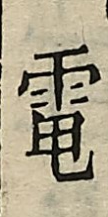電
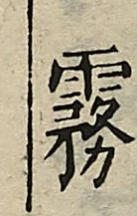霧
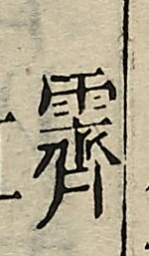霽
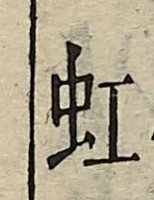虹
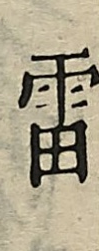雷
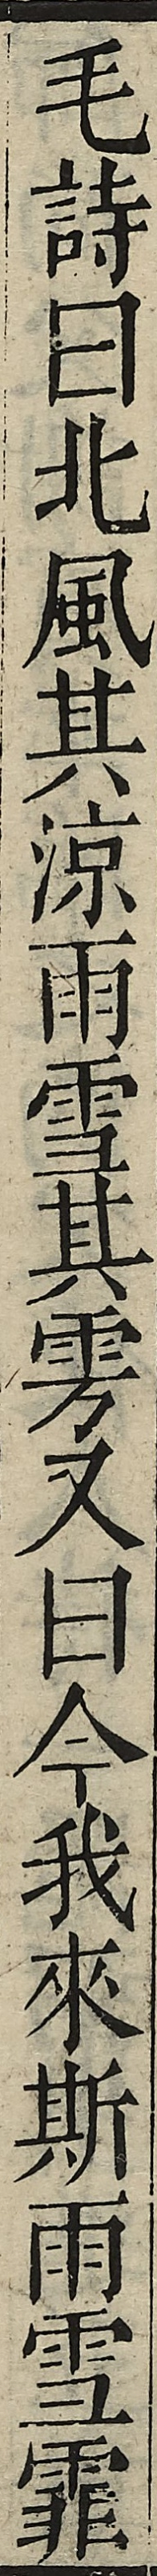毛詩曰北風其涼雨雪其雱又曰今我來斯雨雪霏
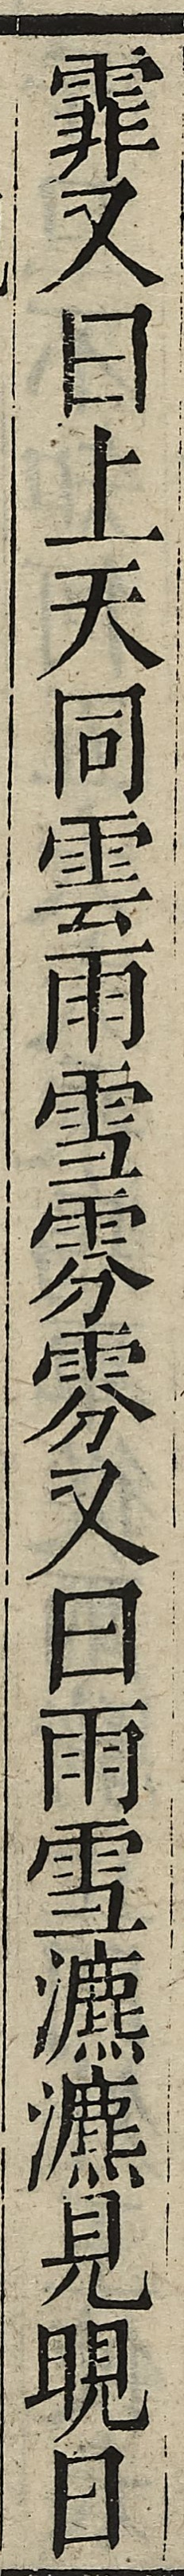霏又曰上天同雲雨雪雰雰又曰雨雪瀌瀌見晛
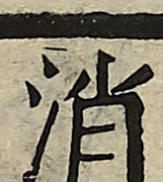消
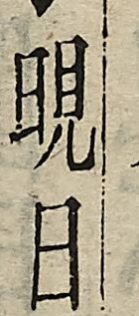晛日
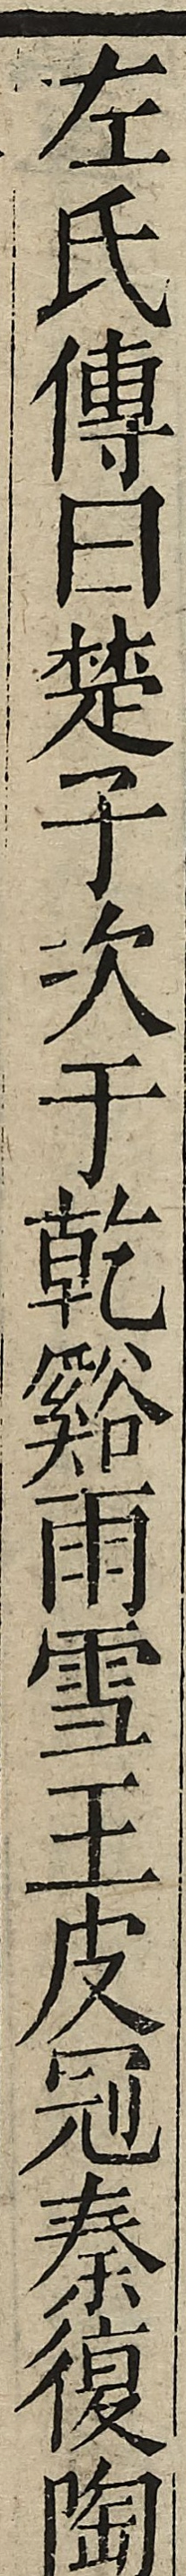左氏傳曰楚子次于乾谿雨雪王皮冠秦復陶
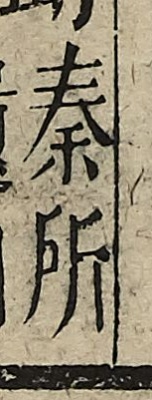秦所
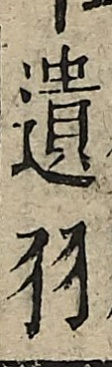遺羽
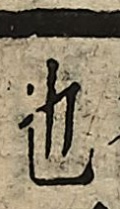也
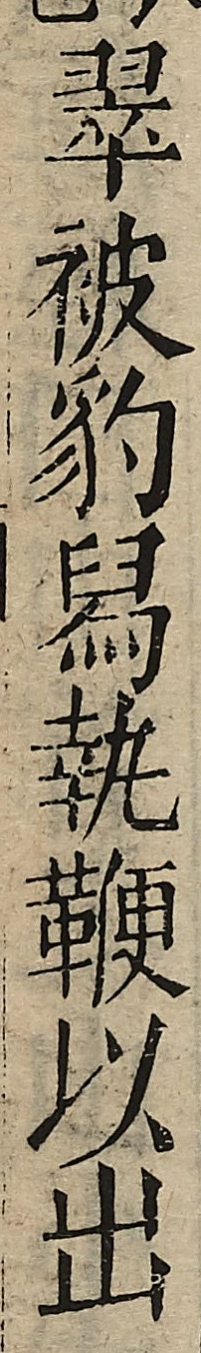翠被豹舄執鞭以出
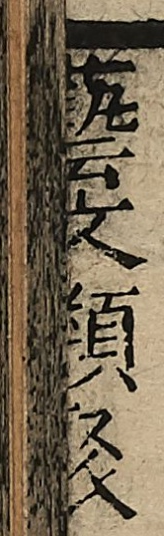藝文類聚
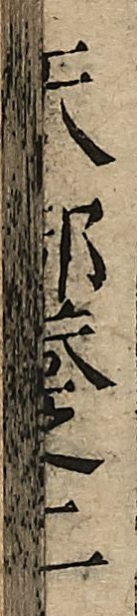天部卷之二
